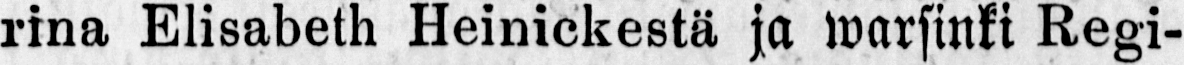rina Elisabeth Heinickestä ja warsinki Regi-
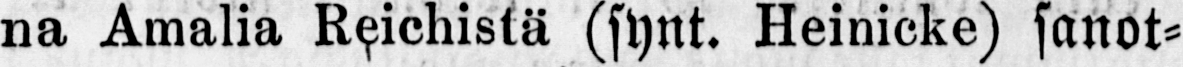na Amalia Reichista (synt. Heinickle) sanot-
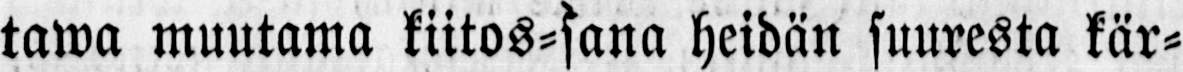tawa muutama kiitos-sana heidän suuresta kär-
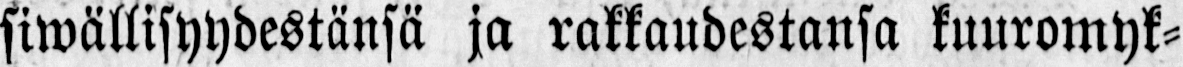siwällisyydestänsä ja rakkaudestansa kuuromyk-
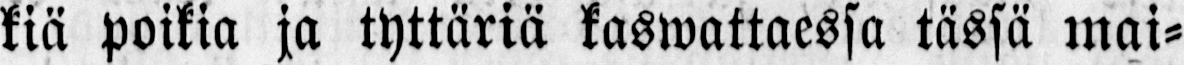kiä poikia ja tyttäriä kaswattaessa tässä mai-
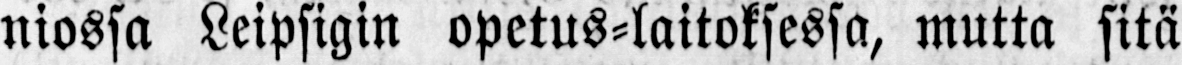niossa Leipsigin opetus-laitoksessa, mutta sitä
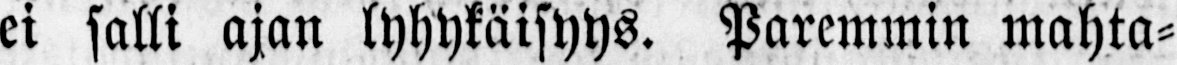ei salli ajan lyhykäisyys. Paremmin mahta-
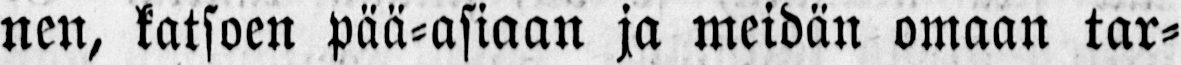nen, katsoen pää-asiaan ja meidän omaan tar-
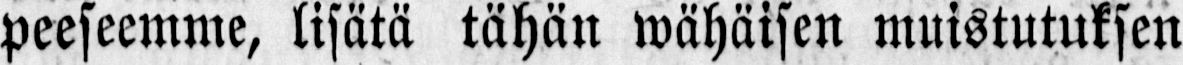peeseemme, lisätä tähän wähäisen muistutuksen
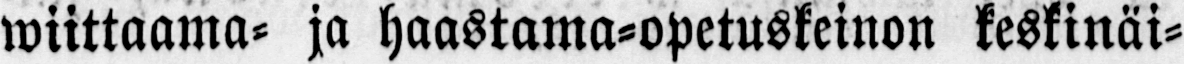wiittaama- ja haastama-opetuskeinon keskinäi-
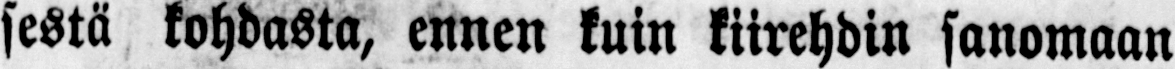sestä kohdasta, ennen kuin kiirehdin sanomaan
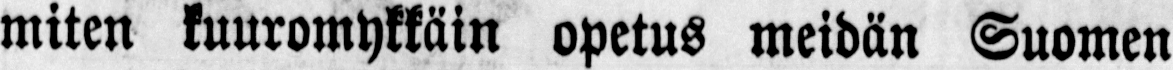miten kuuromykkäin opetus meidän Suomen
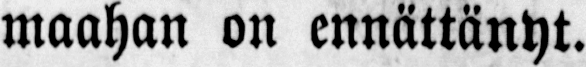maahan on ennättänyt.
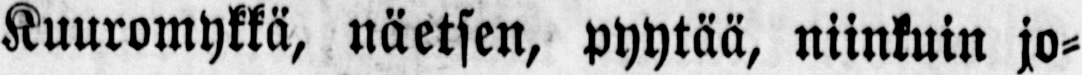Kuuromykkä, näetsen, pyytää, niinkuin jo-
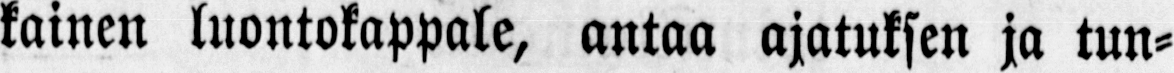kainen luontokappale, antaa ajatuksen ja tun-
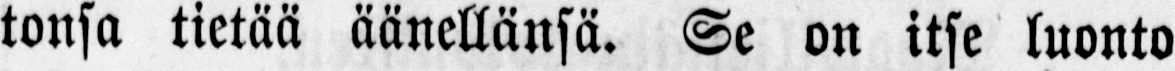tonsa tietää äänellänsä. Se on itse luonto
